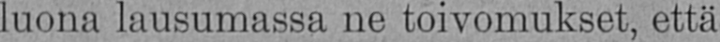luona lausumassa ne toivomukset, että
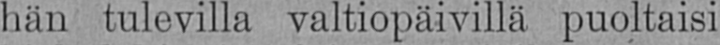hän tulevilla valtiopäivillä puoltaisi
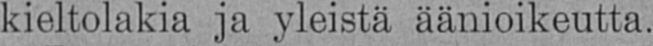kieltolakia ja yleistä äänioikeutta.
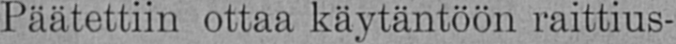Päätettiin ottaa käytäntöön raittius-
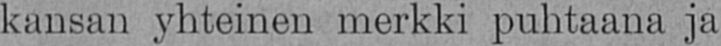kansan yhteinen merkki puhtaana ja
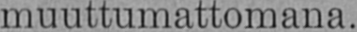muuttumattomana.
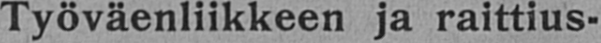— Työväenliikkeen ja raittius-
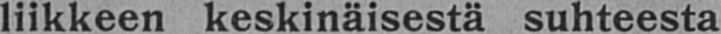liikkeen keskinäisestä suhteesta
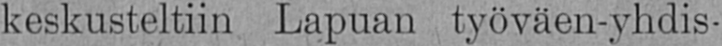keskusteltiin Lapuan työväen-yhdis-
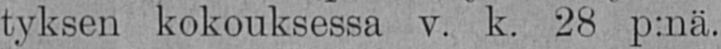tyksen kokouksessa v. k. 28 p:nä.
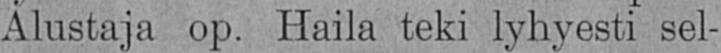Alustaja op. Haila teki lyhyesti sel-
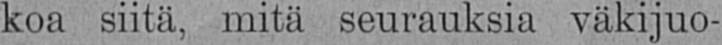koa siitä, mitä seurauksia väkijuo-
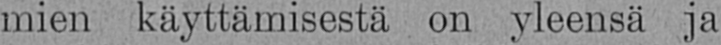mien käyttämisestä on yleensä ja
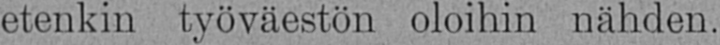etenkin työväestön oloihin nähden.
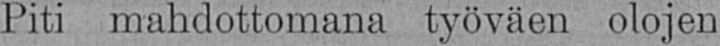Piti mahdottomana työväen olojen
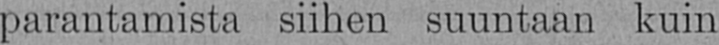parantamista siihen suuntaan kuin
